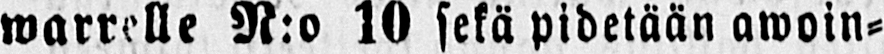warrelle N:o 10 sekä pidetään awoin-
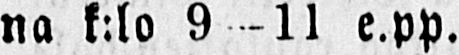na k:lo 9 11 e.pp.
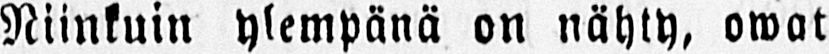Niinkuin ylempänä on nähty, omat
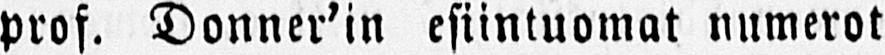prof. Donner'in esiintuomat numerot
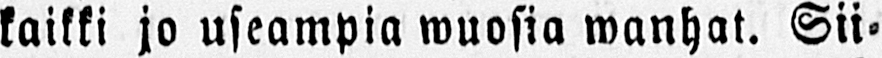kaikki jo useampia wuosia wanhat. Sii-
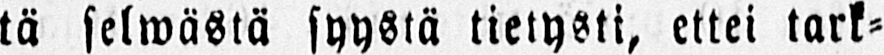tä selwästä syystä tietysti, ettei tark-
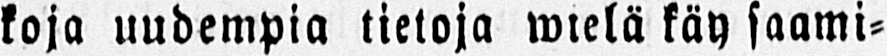koja uudempia tietoja wielä käy saami-
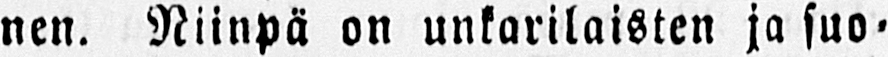nen. Niinpä on unkarilaisten ja suo-
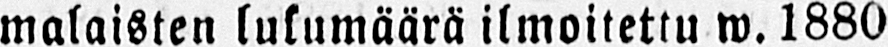malaisten lukumäärä ilmoitettu w. 1880
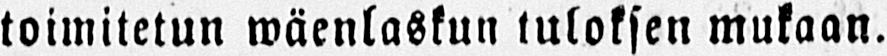toimitetun mäenlaskun tuloksen mukaan.
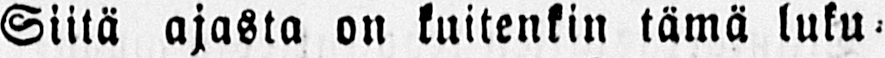Siitä ajasta on kuitenkin tämä luku
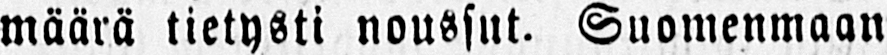määrä tietysti noussut. Suomenmaan
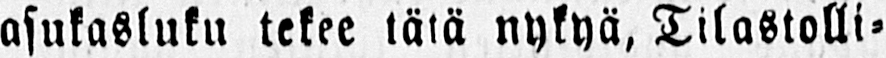asukasluku tekee tätä nykyä, Tilastolli-
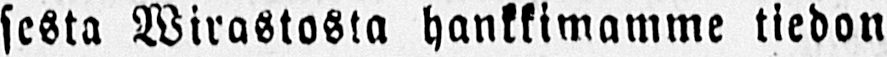sesta Wirastosta hankkimamme tiedon
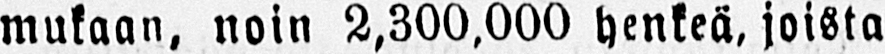mukaan, noin 2,300,000 henkeä, joista
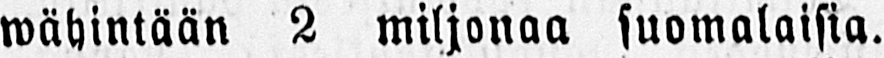wähintään 2 miljonaa suomalaisia.
